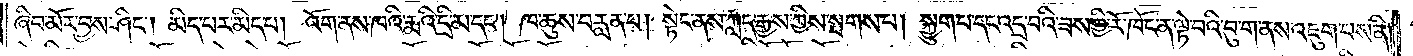ཞིབ་མོར་བྱས་ཤིང༌། མིད་པར་མིད་པ། འོག་ནས་ཁའི་རྨའི་དྲི་མ་དང༌། ཁ་ཆུས་བརླན་པ། སྟེང་ནས་ཀླད་རྒྱས་ཀྱིས་སྤགས་པ། སྐྱུག་པ་དང་འདྲ་བའི་ཟས་ཀྱི་རོ་ཁོང་ན་ལྟེ་བའི་བུ་ག་ནས་འཇུག་པས་ནི།
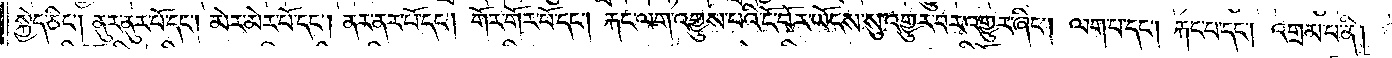སྐྱེད་ཅིང༌། ནུར་ནུར་པོ་དང༌། མེར་མེར་པོ་དང༌། ནར་ནར་པོ་དང༌། གོར་གོར་པོ་དང༌། རྐང་ལག་འགྱུས་པའི་ངོ་བོར་ཡོངས་སུ་འགྱུར་བར་འགྱུར་ཞིང༌། ལག་པ་དང༌། རྐང་པ་དང༌། འགྲམ་པ་ནི།
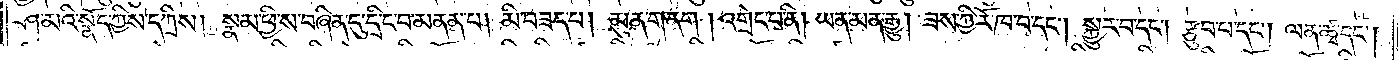ཤ་མའི་སྣོད་ཀྱིས་དཀྲིས། སྣམ་ཕྱིས་བཞིན་དུ་དྲི་ང་བ་མནན་པ། མི་བཟད་པ། མུན་གནག །འགྲེང་པ་ནི། ཡན་མན་རྒྱུ། ཟས་ཀྱི་རོ་ཁ་བ་དང༌། སྐྱུར་བ་དང༌། རྩུབ་པ་དང༌། ལན་ཚྭ་དང༌།
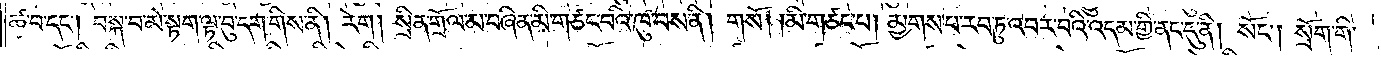ཚ་བ་དང༌། བསྐ་བ་མེ་སྟག་ལྟ་བུ་དག་གིས་ནི། རེག །སྲིན་གྲོལ་མ་བཞིན་མི་གཙང་བའི་ཁུ་བས་ནི། གསོ། །མི་གཙང་པ། མྱགས་པ་རབ་ཏུ་འབར་བའི་འདམ་གྱི་ནང་དུ་ནི། སོང༌། སྲོག་གི་
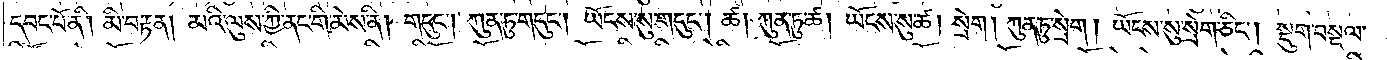དབང་པོ་ནི། མི་བརྟན། མའི་ལུས་ཀྱི་ནང་གི་མེས་ནི། གདུང༌། ཀུན་ཏུ་གདུང༌། ཡོངས་སུ་གདུང༌། ཚ། ཀུན་ཏུ་ཚ། ཡོངས་སུ་ཚ། སྲེག །ཀུན་ཏུ་སྲེག །ཡོངས་སུ་སྲེག་ཅིང༌། སྡུག་བསྔལ་
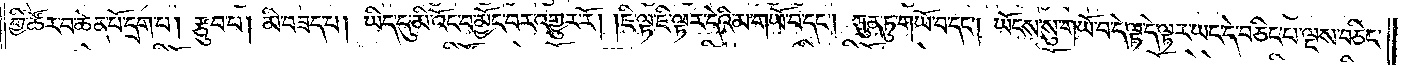གྱི་ཚོར་བ་ཆེན་པོ་དྲག་པ། རྩུབ་པ། མི་བཟད་པ། ཡིད་དུ་མི་འོང་བ་མྱོང་བར་འགྱུར་རོ། །ཇི་ལྟ་ཇི་ལྟར་དེའི་མ་གཡོ་བ་དང༌། ཀུན་ཏུ་གཡོ་བ་དང༌། ཡོངས་སུ་གཡོ་བ་དེ་ལྟ་དེ་ལྟར་ཡང་དེ་བཅིང་པ་ལྔས་བཅིང་
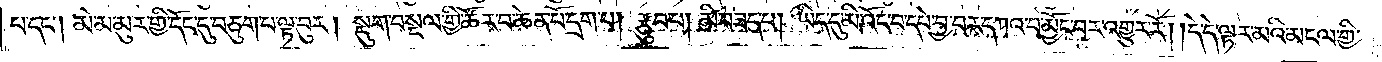པ་དང༌། མེ་མ་མུར་གྱི་དོང་དུ་བཅུག་པ་ལྟ་བུར། སྡུག་བསྔལ་གྱི་ཚོར་བ་ཆེན་པོ་དྲག་པ། རྩུབ་པ། མི་བཟད་པ། ཡིད་དུ་མི་འོང་བ་དཔེ་བྱ་བར་དཀའ་བ་མྱོང་བར་འགྱུར་རོ། །དེ་དེ་ལྟར་མའི་མངལ་གྱི་
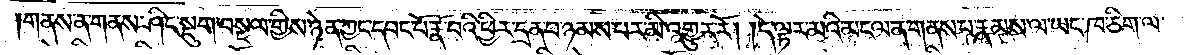།གནས་ན་གནས་ཤིང་སྡུག་བསྔལ་གྱིས་ཉེན་ཀྱང་དབང་པོ་རྣོ་བའི་ཕྱིར་དྲན་པ་ཉམས་པར་མི་འགྱུར་རོ། །དེ་ལྟར་མའི་མངལ་ན་གནས་པ་རྣམས་ལ་ཡང་ཁ་ཅིག་ལ་
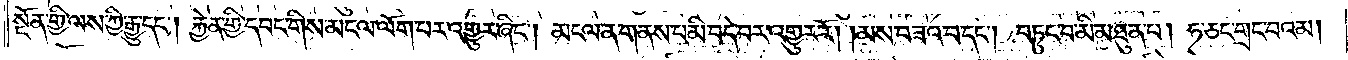སྔོན་གྱི་ལས་ཀྱི་རྒྱུ་དང༌། རྐྱེན་གྱི་དབང་གིས་མངལ་ལོག་པར་འགྱུར་ཞིང༌། མངལ་ན་གནས་པ་མི་བདེ་བར་འགྱུར་རོ། །མས་བཟའ་བ་དང༌། བཏུང་བ་མི་མཐུན་པ། ཧ་ཅང་གྲང་བའམ།
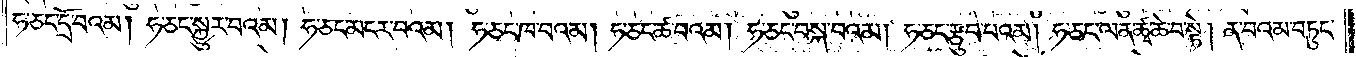ཧ་ཅང་དྲོ་བའམ། ཧ་ཅང་སྐྱུར་བའམ། ཧ་ཅང་མངར་བའམ། ཧ་ཅང་ཁ་བའམ། ཧ་ཅང་ཚ་བའམ། ཧ་ཅང་བསྐ་བའམ། ཧ་ཅང་རྩུབ་པའམ། ཧ་ཅང་ལན་ཚྭ་ཆེ་བ་སྟེ། ན་བའམ་བཏུང་
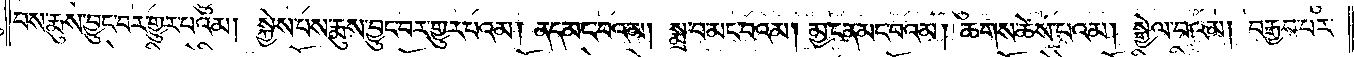བས་རྨུས་བྱུང་བར་གྱུར་པའམ། སྐྱེས་པས་རྨུས་བྱུང་བར་གྱུར་པའམ། ནད་མང་བའམ། སྨྲ་བ་མང་བའམ། མྱ་ངན་མང་བའམ། ཆགས་ཆེས་པའམ། སྒྱེལ་བའམ། བརྒྱབ་པར་
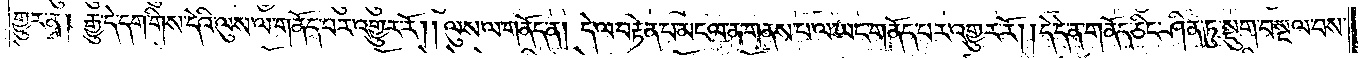གྱུར་ན། རྒྱུ་དེ་དག་གིས་དེའི་ལུས་ལ་གནོད་པར་འགྱུར་རོ། །ལུས་ལ་གནོད་ན། དེ་ལ་བརྟེན་པ་མངལ་ན་གནས་པ་ལ་ཡང་གནོད་པར་འགྱུར་རོ། །དེ་དེ་ན་གནོད་ཅིང་ཤིན་ཏུ་སྡུག་བསྔལ་བས་
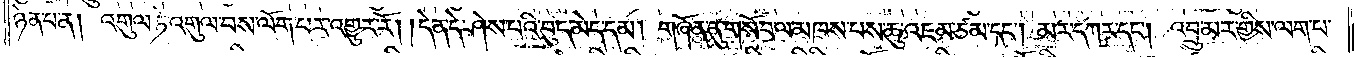ཉེན་པ་ན། འགུལ་ཏེ་འགུལ་བས་ལོག་པར་འགྱུར་རོ། །དེ་ན་དེ་ཤེས་པའི་བུད་མེད་དམ། གཞོན་ནུ་གསོ་བ་ལ་མཁས་པས་ཆུ་འཇམ་ཙམ་དང༌། མར་དཀར་དང༌། འབྲུ་མར་གྱིས་ལག་པ་
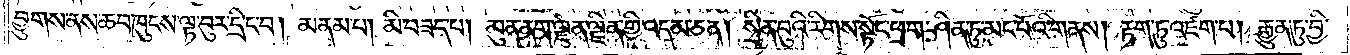བྱུགས་ནས་ཆབ་ཁུངས་ལྟ་བུར་དྲི་ང་བ། མནམ་པ། མི་བཟད་པ། མུན་ནག་ལྔ་ལྗིན་གྱི་འདམ་ཅན། སྲིན་བུའི་རིགས་སྟོང་ཕྲག་ཤིན་ཏུ་མང་པོའི་གནས། རྟག་ཏུ་འཛག་པ། རྒྱུན་ཏུ་བྱི་
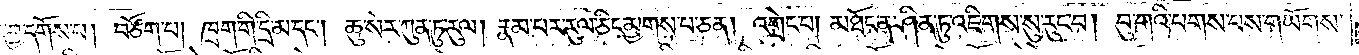དོར་བྱ་དགོས་པ། བཙོག་པ། ཁྲག་གི་དྲི་མ་དང༌། ཆུ་སེར་ཀུན་ཏུ་རུལ། རྣམ་པར་རུལ་ཅིང་མྱགས་པ་ཅན། འགྲེང་པ། མཐོང་ན་ཤིན་ཏུ་འཇིགས་སུ་རུང་བ། བུ་གའི་པགས་པས་གཡོགས་
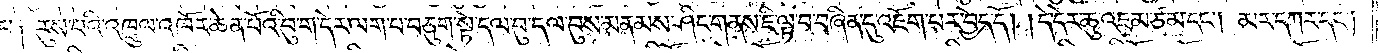པ། རུས་པའི་འཁྲུལ་འཁོར་ཆེན་པོའི་བུ་ག་དེར་ལག་པ་བཅུག་སྟེ་དལ་བུ་དལ་བུས་མནམས་ཤིང་གནས་ཇི་ལྟ་བ་བཞིན་དུ་འཇོག་པར་བྱེད་དོ། །དེ་དེར་ཆུ་འཇམ་ཙམ་དང༌། མར་དཀར་དང༌།
